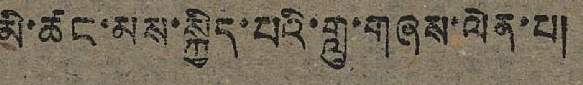མི་ཚང་མས་སྐྱིད་པའི་གླུ་གཞས་ལེན་པ།
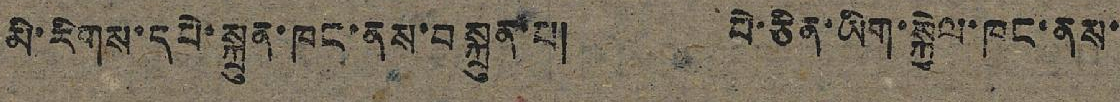མི་རིགས་དཔེ་སྐྲུན་ཁང་ནས་བསྐྲུན་པ། པེ་ཅིན་ཡིག་སྐྱེལ་ཁང་ནས་
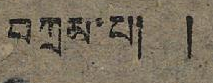བཀྲམ་པ། །
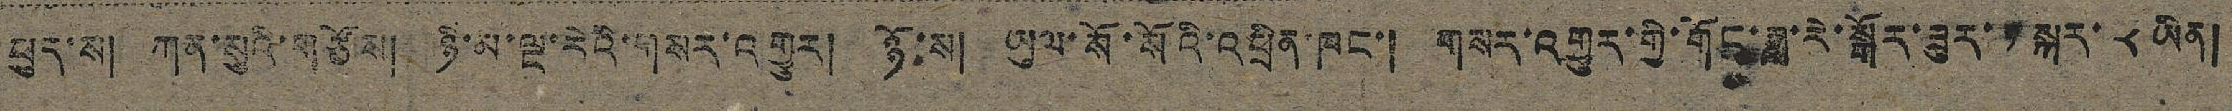ཕུད་ས། ཀན་སུའི་གཙོས། ཉི་མ་ལྔ་རེའི་གསར་འགྱུར། ཉོ་ས། ཡུལ་སོ་སོའི་འཕྲིན་ཁང་། གསར་འགྱུར་གྱི་གོང་ཟླ་རེ་སྒོར་ཟུར་ ༡ སྐར་ ༨ ཡིན།
